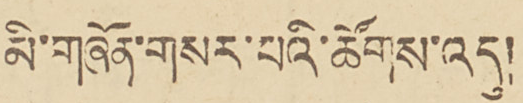མི་གཞོན་གསར་པའི་ཚོགས་འདུ།
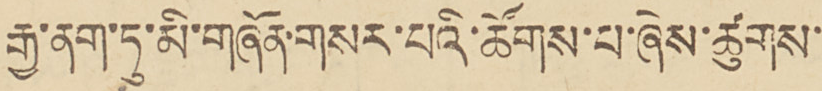རྒྱ་ནག་ཏུ་མི་གཞོན་གསར་པའི་ཚོགས་པ་ཞེས་ཚུགས་
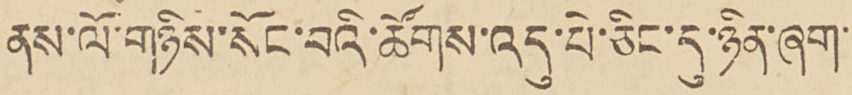ནས་ལོ་གཉིས་སོང་བའི་ཚོགས་འདུ་པེ་ཅིང་དུ་ཉིན་ཞག་
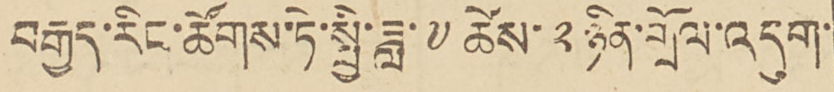བརྒྱད་རིང་ཚོགས་ཏེ་སྤྱི་ཟླ་༧ཚེས་༢ཉིན་གྲོལ་འདུག་
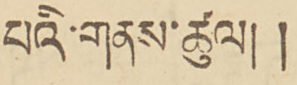པའི་གནས་ཚུལ། །
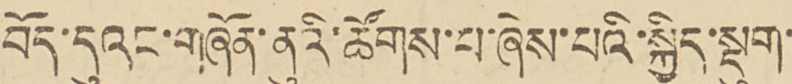བོད་དུའང་གཞོན་ནུའི་ཚོགས་པ་ཞེས་པའི་སྐྱིད་སྡུག་
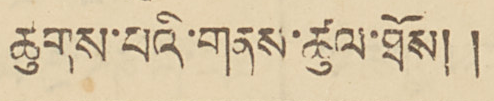ཚུགས་པའི་གནས་ཚུལ་ཐོས།།
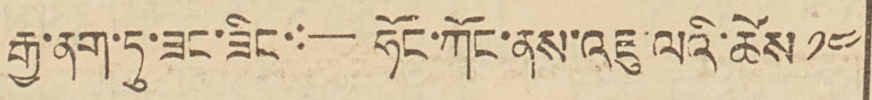རྒྱ་ནག་ཏུ་ཟང་ཟིང་:— ཧོར་ཀོང་ནས་འཇུ་ལའི་ཚེས ༡༤
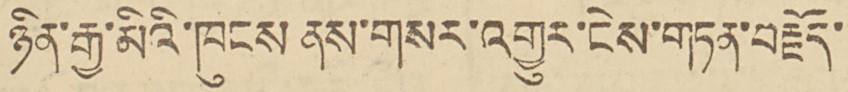ཉིན་རྒྱ་མིའི་ཁུངས ནས་གསར་འགྱུར་ངེས་གཏན་བརྗོད་
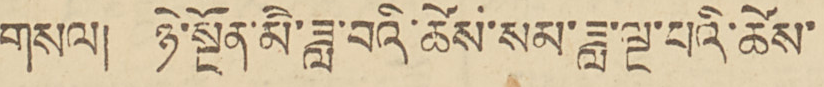གསལ། ཉེ་སྔོན་མི་ཟླ་བའི་ཚེས་སམ་ཟླ་ལྔ་པའི་ཚེས་
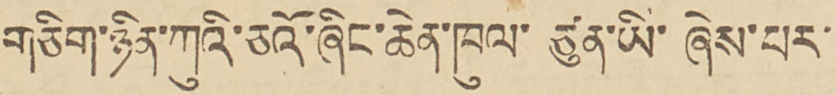གཅིག་ཉིན་ཀུའི་ཅའོ་ཞིང་ཆེན་ཁུལ་ཙུན་ཡི་ཞེས་པར་
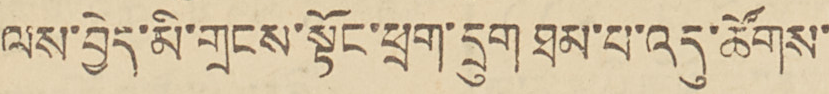ལས་བྱེད་མི་གྲངས་སྟོང་ཕྲག་དྲུག ཐམ་པ་འདུ་ཚོགས་
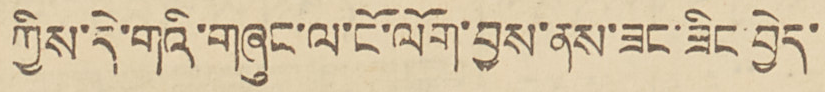ཀྱིས་དེ་གའི་གཞུང་ལ་ངོ་ལག་བྱས་ནས་ཟང་ཟིང་བྱེད་
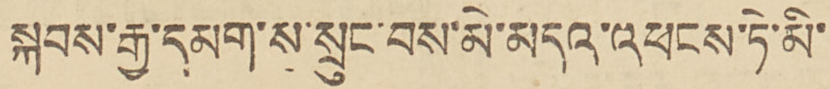སྐབས་རྒྱ་དམག་ས་སྲུང་བས་མེ་མདའ་འཕངས་ཏེ་མི་
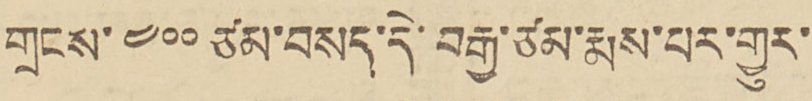གྲངས་༤༠༠ཙམ་བསད་དེ་བརྒྱ་ཙམ་རྨས་པར་གྱུར་
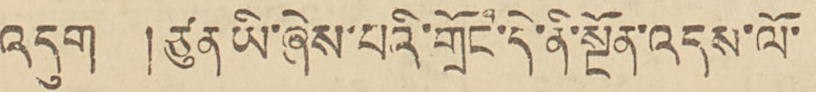འདུག །རྩུན ཡི་ཞེས་པའི་གྲོང་དེ་ནི་སྔོན་འདས་ལོ་
